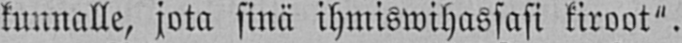kunnalle, jota sinä ihmiswihassasi kiroot".
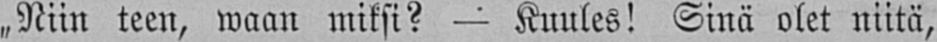„Niin teen, waan miksi? — Kuules! Sinä olet niitä,
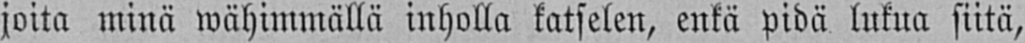joita minä wähimmällä inholla katselen, enkä pidä lukua siitä,
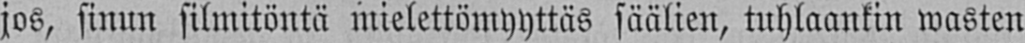jos, sinun silmitöntä mielettömyyttäs säälien, tuhlaankin wasten
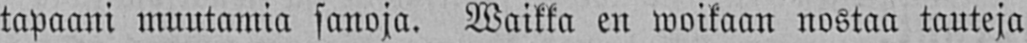tapaani muutamia sanoja. Waikka en woikaan nostaa tauteja
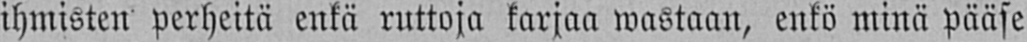ihmisten perheitä enkä ruttoja karjaa wastaan, enkö minä pääse
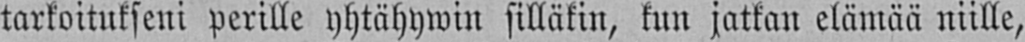tarkoitukseni perille yhtähywin silläkin, kun jatkan elämää niille,
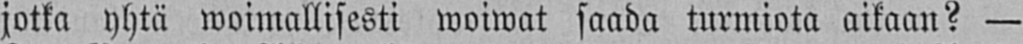jotka yhtä woimallisesti woiwat saada turmiota aikaan? —
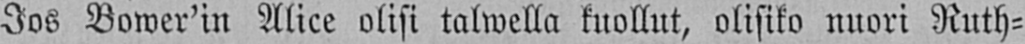Jos Bower'in Alice olisi talwella kuollut, olisiko nuori Ruth-
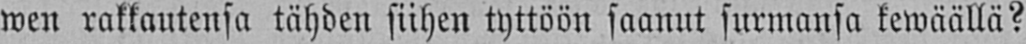wen rakkautensa tähden siihen tyttöön saanut surmansa kewäällä?
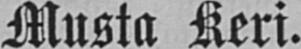Musta Keri.
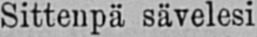Sittenpä sävelesi
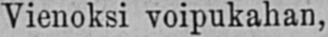Vienoksi voipukahan,
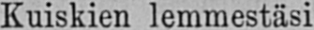Kuiskien lemmestäsi
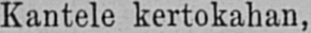Kantele kertokahan,
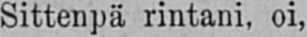Sittenpä rintani, oi,
